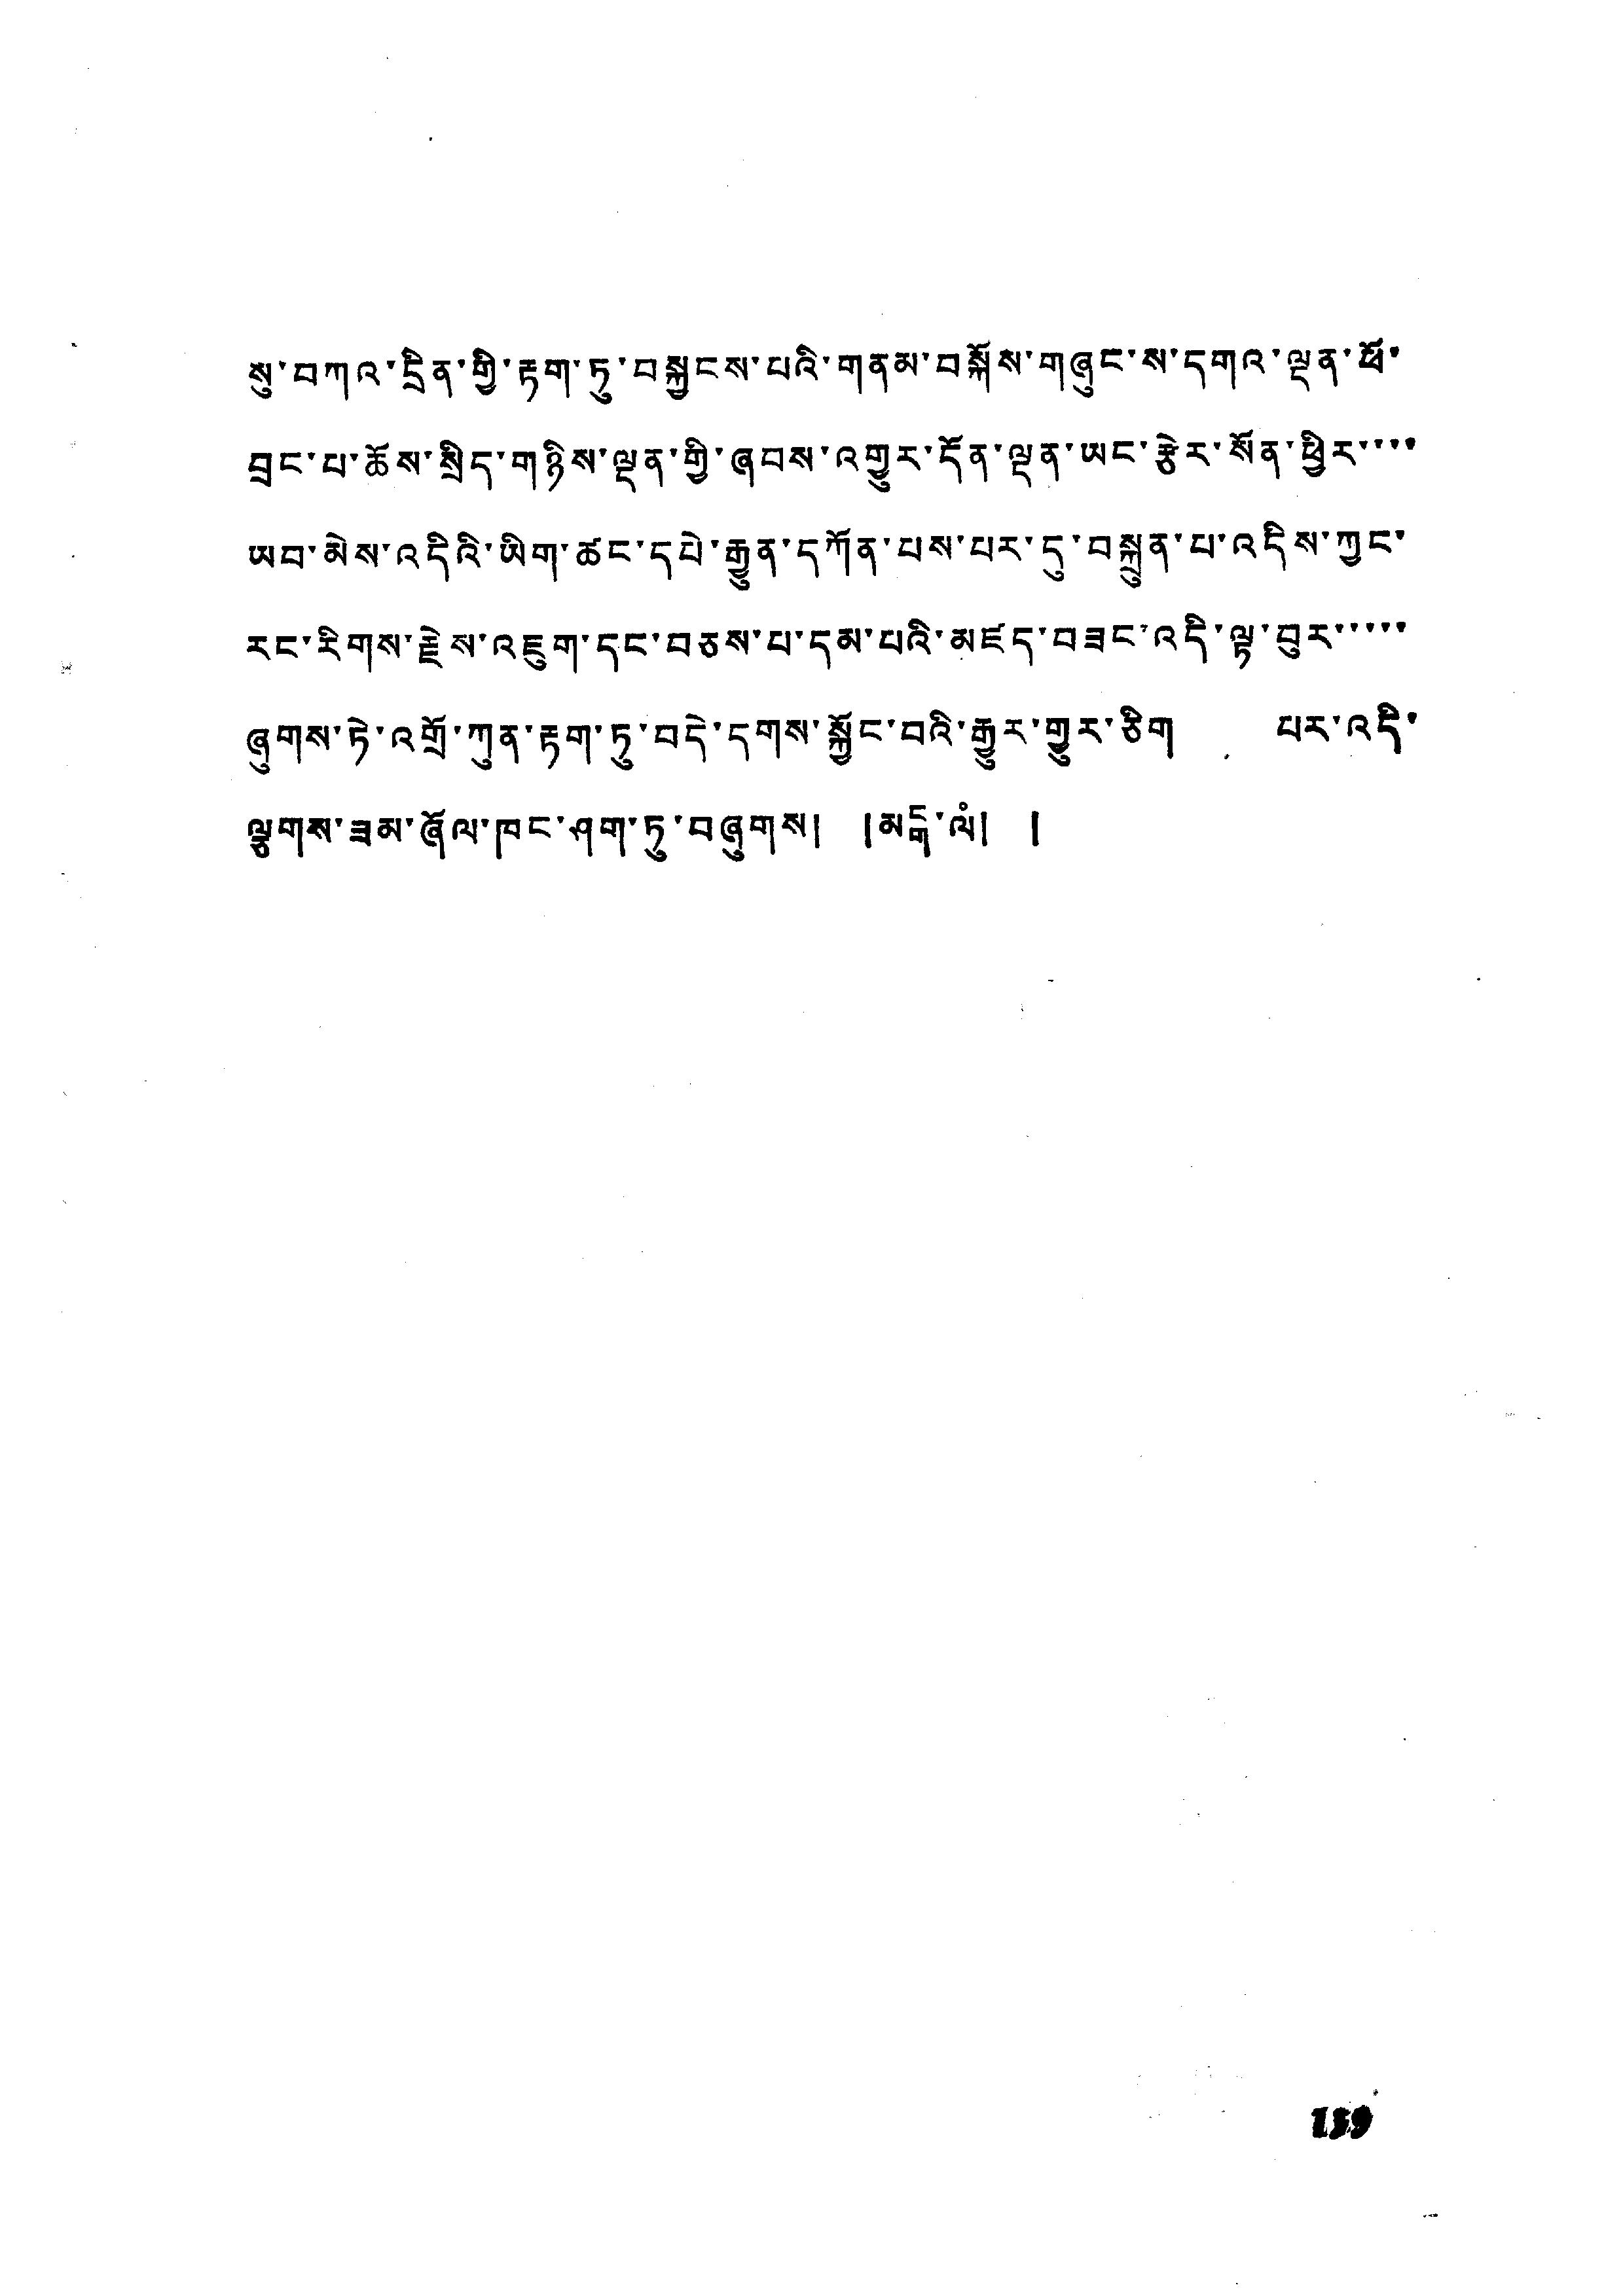སུ་བཀའ་དྲིན་གྱི་རྟག་ཏུ་བསྐྱངས་པའི་གནམ་བསྐོས་གཞུང་ས་དགའ་ལྡན་ཕོ་
བྲང་པ་ཆོས་སྲིད་གཉིས་ལྡན་གྱི་ཞབས་འགྱུར་དོན་ལྡན་ཡང་རྩེར་སོན་ཕྱིར་་་་
ཡབ་མེས་འདིའི་ཡིག་ཚང་དཔེ་རྒྱུན་དཀོན་པས་པར་དུ་བསྐྲུན་པ་འདིས་ཀྱང་
རང་རིགས་རྗེས་འཇུག་དང་བཅས་པ་དམ་པའི་མཛད་བཟང་འདི་ལྷ་བུར་་་་་
ཞུགས་ཏེ་འགྲོ་ཀུན་རྟག་ཏུ་བདེ་དགས་སྐྱོང་བའི་རྒྱུར་གྱུར་ཅིག པར་འདི་
ལྕགས་ཟམ་ཞོལ་ཁང་ཤག་ཏུ་བཞུགས། །མངྒ་ལཾ། །
159
